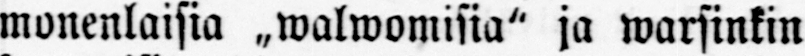monenlaisia „walwomisia" ja warsinkin
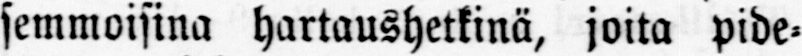semmoisina hartaushetkinä, joita pide-
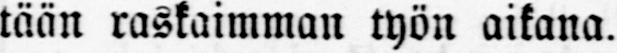tään raskaimman työn aikana.
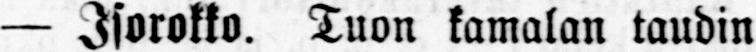— Isorokko. Tuon kamalan taudin
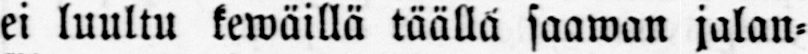ei luultu kewäillä täällä saawan jalan-
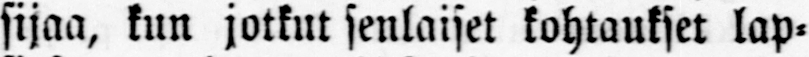sijaa, kun jotkut senlaiset kohtaukset lap-
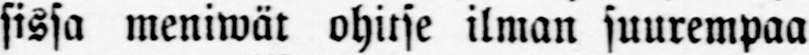sissa meniwät ohitse ilman suurempaa
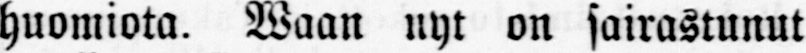huomiota. Waan nyt on sairastunut
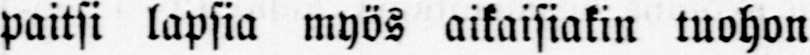paitsi lapsia myös aikaisiakin tuohon
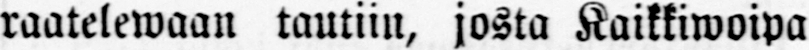raatelewaan tautiin, josta Kaikkiwoipa
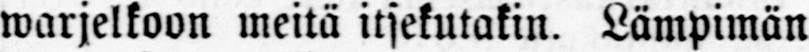warjelkoon meitä itsekutakin. Lämpimän
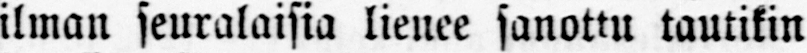ilman seuralaisia lienee sanottu tautikin
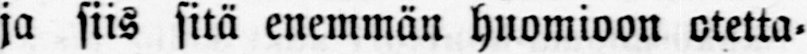ja siis sitä enemmän huomioon otetta-
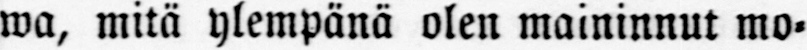wa, mitä ylempänä olen maininnut mo-
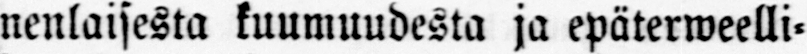nenlaisesta kuumuudesta ja epäterweelli-
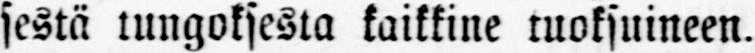sestä tungoksesta kaikkine tuoksuineen.
